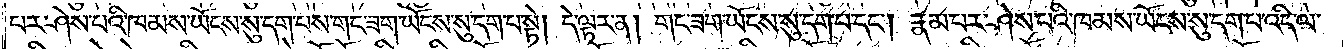པར་ཤེས་པའི་ཁམས་ཡོངས་སུ་དག་པས་གང་ཟག་ཡོངས་སུ་དག་པ་སྟེ། དེ་ལྟར་ན། གང་ཟག་ཡོངས་སུ་དག་པ་དང༌། རྣམ་པར་ཤེས་པའི་ཁམས་ཡོངས་སུ་དག་པ་འདི་ལ་
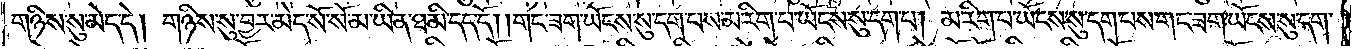གཉིས་སུ་མེད་དེ། གཉིས་སུ་བྱར་མེད་སོ་སོ་མ་ཡིན་ཐ་མི་དད་དོ། །གང་ཟག་ཡོངས་སུ་དག་པས་མ་རིག་པ་ཡོངས་སུ་དག་པ། མ་རིག་པ་ཡོངས་སུ་དག་པས་གང་ཟག་ཡོངས་སུ་དག་
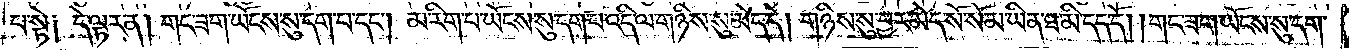པ་སྟེ༑ དེ་ལྟར་ན། གང་ཟག་ཡོངས་སུ་དག་པ་དང༌། མ་རིག་པ་ཡོངས་སུ་དག་པ་འདི་ལ་གཉིས་སུ་མེད་དེ། གཉིས་སུ་བྱར་མེད་སོ་སོ་མ་ཡིན་ཐ་མི་དད་དོ། །གང་ཟག་ཡོངས་སུ་དག་
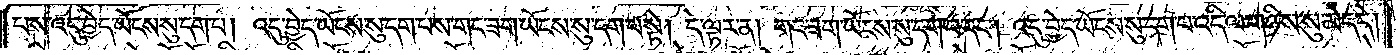པས་འདུ་བྱེད་ཡོངས་སུ་དག་པ། འདུ་བྱེད་ཡོངས་སུ་དག་པས་གང་ཟག་ཡོངས་སུ་དག་པ་སྟེ། དེ་ལྟར་ན། གང་ཟག་ཡོངས་སུ་དག་པ་དང༌། འདུ་བྱེད་ཡོངས་སུ་དག་པ་འདི་ལ་གཉིས་སུ་མེད་དེ།
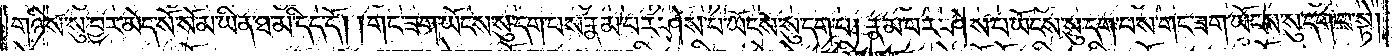གཉིས་སུ་བྱར་མེད་སོ་སོ་མ་ཡིན་ཐ་མི་དད་དོ། །གང་ཟག་ཡོངས་སུ་དག་པས་རྣམ་པར་ཤེས་པ་ཡོངས་སུ་དག་པ། རྣམ་པར་ཤེས་པ་ཡོངས་སུ་དག་པས་གང་ཟག་ཡོངས་སུ་དག་པ་སྟེ།
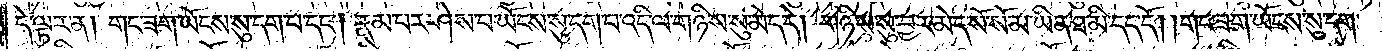དེ་ལྟར་ན། གང་ཟག་ཡོངས་སུ་དག་པ་དང༌། རྣམ་པར་ཤེས་པ་ཡོངས་སུ་དག་པ་འདི་ལ་གཉིས་སུ་མེད་དེ། གཉིས་སུ་བྱར་མེད་སོ་སོ་མ་ཡིན་ཐ་མི་དད་དོ། །གང་ཟག་ཡོངས་སུ་དག་
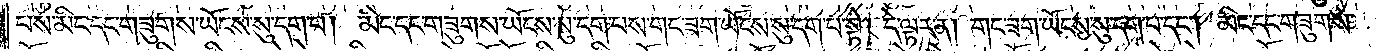པས་མིང་དང་གཟུགས་ཡོངས་སུ་དག་པ། མིང་དང་གཟུགས་ཡོངས་སུ་དག་པས་གང་ཟག་ཡོངས་སུ་དག་པ་སྟེ། དེ་ལྟར་ན། གང་ཟག་ཡོངས་སུ་དག་པ་དང༌། མིང་དང་གཟུགས་
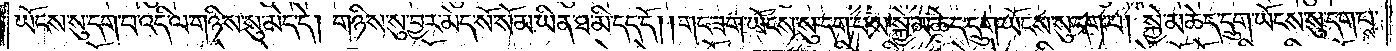ཡོངས་སུ་དག་པ་འདི་ལ་གཉིས་སུ་མེད་དེ། གཉིས་སུ་བྱར་མེད་སོ་སོ་མ་ཡིན་ཐ་མི་དད་དོ། །གང་ཟག་ཡོངས་སུ་དག་པས་སྐྱེ་མཆེད་དྲུག་ཡོངས་སུ་དག་པ། སྐྱེ་མཆེད་དྲུག་ཡོངས་སུ་དག་པས་
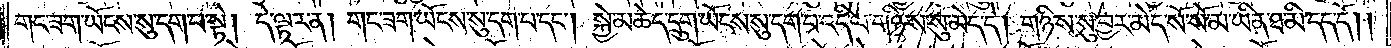གང་ཟག་ཡོངས་སུ་དག་པ་སྟེ། དེ་ལྟར་ན། གང་ཟག་ཡོངས་སུ་དག་པ་དང༌། སྐྱེ་མཆེད་དྲུག་ཡོངས་སུ་དག་པ་འདི་ལ་གཉིས་སུ་མེད་དེ། གཉིས་སུ་བྱར་མེད་སོ་སོ་མ་ཡིན་ཐ་མི་དད་དོ། །
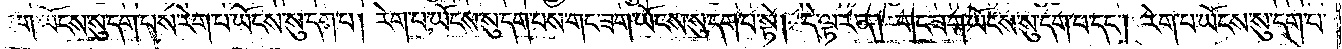གང་ཟག་ཡོངས་སུ་དག་པས་རེག་པ་ཡོངས་སུ་དག་པ། རེག་པ་ཡོངས་སུ་དག་པས་གང་ཟག་ཡོངས་སུ་དག་པ་སྟེ། དེ་ལྟར་ན། གང་ཟག་ཡོངས་སུ་དག་པ་དང༌། རེག་པ་ཡོངས་སུ་དག་པ་
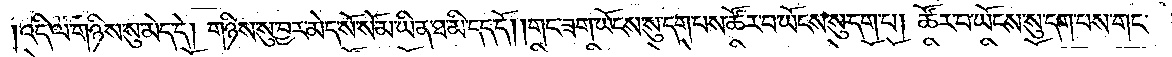འདི་ལ་གཉིས་སུ་མེད་དེ། གཉིས་སུ་བྱར་མེད་སོ་སོ་མ་ཡིན་ཐ་མི་དད་དོ། །གང་ཟག་ཡོངས་སུ་དག་པས་ཚོར་བ་ཡོངས་སུ་དག་པ། ཚོར་བ་ཡོངས་སུ་དག་པས་གང་
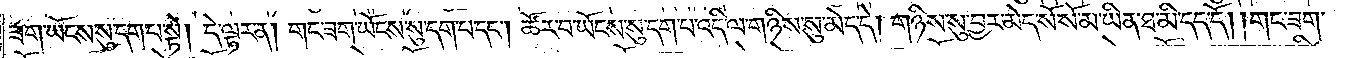ཟག་ཡོངས་སུ་དག་པ་སྟེ། དེ་ལྟར་ན། གང་ཟག་ཡོངས་སུ་དག་པ་དང༌། ཚོར་བ་ཡོངས་སུ་དག་པ་འདི་ལ་གཉིས་སུ་མེད་དེ། གཉིས་སུ་བྱར་མེད་སོ་སོ་མ་ཡིན་ཐ་མི་དད་དོ། །གང་ཟག་
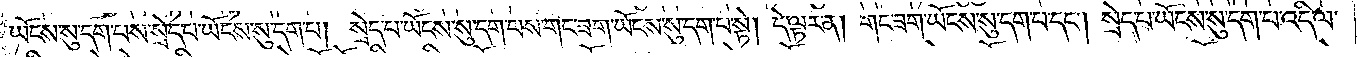ཡོངས་སུ་དག་པས་སྲེད་པ་ཡོངས་སུ་དག་པ། སྲེད་པ་ཡོངས་སུ་དག་པས་གང་ཟག་ཡོངས་སུ་དག་པ་སྟེ། དེ་ལྟར་ན། གང་ཟག་ཡོངས་སུ་དག་པ་དང༌། སྲེད་པ་ཡོངས་སུ་དག་པ་འདི་ལ་
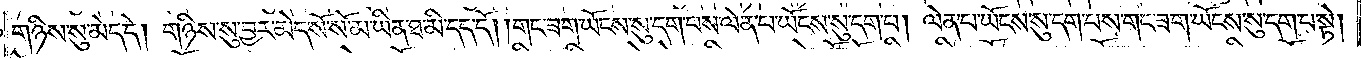གཉིས་སུ་མེད་དེ། གཉིས་སུ་བྱར་མེད་སོ་སོ་མ་ཡིན་ཐ་མི་དད་དོ། །གང་ཟག་ཡོངས་སུ་དག་པས་ལེན་པ་ཡོངས་སུ་དག་པ། ལེན་པ་ཡོངས་སུ་དག་པས་གང་ཟག་ཡོངས་སུ་དག་པ་སྟེ།
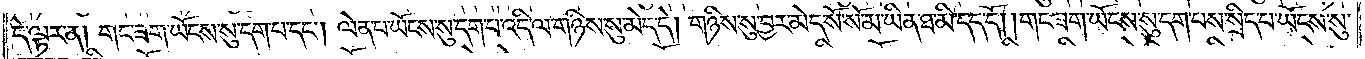དེ་ལྟར་ན། གང་ཟག་ཡོངས་སུ་དག་པ་དང༌། ལེན་པ་ཡོངས་སུ་དག་པ་འདི་ལ་གཉིས་སུ་མེད་དེ། གཉིས་སུ་བྱར་མེད་སོ་སོ་མ་ཡིན་ཐ་མི་དད་དོ། །གང་ཟག་ཡོངས་སུ་དག་པས་སྲིད་པ་ཡོངས་སུ་
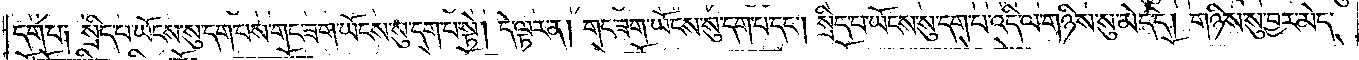དག་པ༑ སྲིད་པ་ཡོངས་སུ་དག་པས་གང་ཟག་ཡོངས་སུ་དག་པ་སྟེ། དེ་ལྟར་ན། གང་ཟག་ཡོངས་སུ་དག་པ་དང༌། སྲིད་པ་ཡོངས་སུ་དག་པ་འདི་ལ་གཉིས་སུ་མེད་དེ། གཉིས་སུ་བྱར་མེད་
